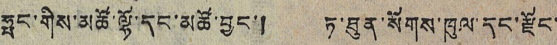ཧྥང་གིས་མཚོ་ལྷོ་དང་མཚོ་བྱུང་། ཏ་ཐུན་སོགས་ཁུལ་དང་རྫོང་
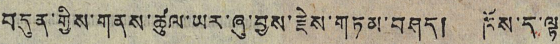བདུན་གྱིས་གནས་ཚུལ་ཡར་ཞུ་བྱས་རྗེས་གཏམ་བཤད། ཁོས་ད་ལྟ
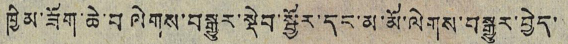ཁྱིམ་ཟོག་ཆེ་བ ལེགས་བསྒྱུར་སྡེབ་སྦྱོར་དང་མ་མོ་ལེགས་བསྒྱུར་བྱེད་
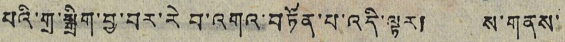པའི་གྲ་སྒྲིག་བྱ་བར་རེ བ་འགའ་བཏོན་པ་འདི་ལྟར། ས་གནས་
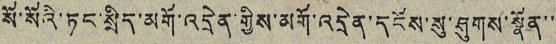སོ་སོའི་ཏང་སྲིད་མགོ་འདྲེན་གྱིས་མགོ་འདྲེན་དངོས་སུ་ཤུགས་སྣོན་་
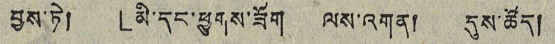བྱས་ཏེ། 「མི་དང་ཕྱུགས་ཟོག ལས་འགན། དུས་ཚོད།
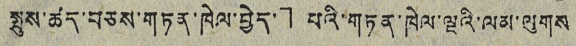སྤུས་ཚད་བཅས་གཏན་ཁེལ་བྱེད་」 པའི་གཏན་ཁེལ་ལྔའི་ལམ་ལུགས
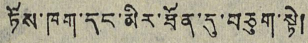ཏོས་ཁག་དང་མིར་ཐོན་དུ་བཅུག་སྟེ།
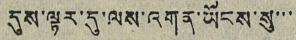དུས་ལྟར་དུ་ལས་འགན་ཡོངས་སུ་་་
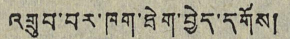འགྲུབ་བར་ཁག་ཐེག་བྱེད་དགོས།
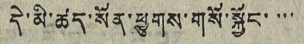དེ་མི་ཚད་སོན་ཕྱུགས་གསོ་སྐྱོང་་་་
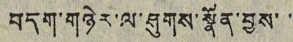བདག་གཉེར་ལ་ཤུགས་སྣོན་བྱས་་
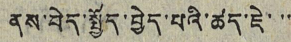ནས་བེད་སྤྱོད་བྱེད་པའི་ཚད་ཇེ་་་
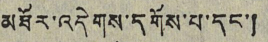མཐོར་འདེགས་དགོས་པ་དང་།
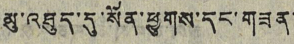མུ་འཐུད་དུ་སོན་ཕྱུགས་དང་གཟན་
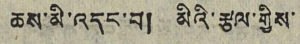ཆས་མི་འདང་བ། མིའི་རྩལ་གྱིས་
